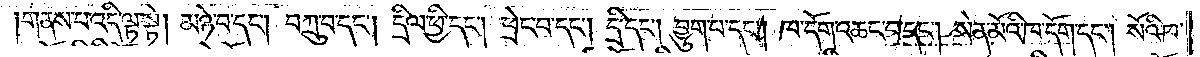གནས་པ་འདི་ལྟ་སྟེ། མཉེ་བ་དང༌། བཀྲུ་བ་དང༌། དྲིལ་ཕྱི་དང༌། ཕྲེང་བ་དང༌། དྲི་དང༌། བྱུག་པ་དང༌། ཁ་དོག་འཆང་བ་དང༌། སེན་མོའི་ཁ་དོག་དང༌། སོའི་ཁ་
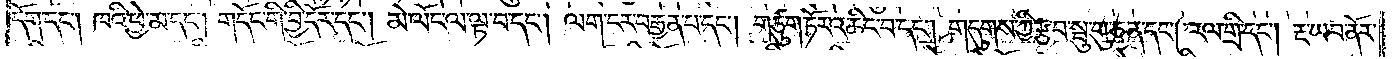དོག་དང༌། ཁའི་ཕྱེ་མ་དང༌། གདོང་གི་བྱི་དོར་དང༌། མེ་ལོང་ལ་ལྟ་བ་དང༌། ལག་ངར་བརྒྱན་པ་དང༌། གཙུག་ཏོར་འཆིང་བ་དང༌། གདུགས་ཀྱི་རྩ་བ་སྦུ་གུ་ཅན་དང༌། རལ་གྲི་དང༌། རྔ་ཡབ་ནོར་
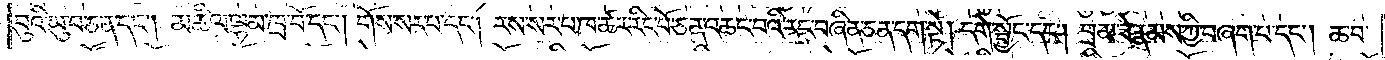བུའི་ཡུ་བ་ཅན་དང༌། མཆིལ་ལྷམ་ཁྲ་བོ་དང༌། གོས་སར་པ་དང༌། རས་སར་པ་ཁ་ཚར་རིང་པོ་ཅན་འཆང་བའི་རང་བཞིན་ཅན་དག་སྟེ། དགེ་སྦྱོང་དང༌། བྲམ་ཟེ་རྣམས་ཀྱི་བཞག་པ་དང༌། ཆ་བ་
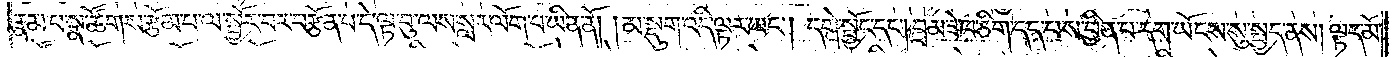རྣམ་པ་སྣ་ཚོགས་རྩོམ་པ་ལ་སྦྱོར་བར་བརྩོན་པ་དེ་ལྟ་བུ་ལས་སླར་ལོག་པ་ཡིན་ནོ། །མ་སྡུག་འདི་ལྟར་ཡང༌། དགེ་སྦྱོང་དང༌། བྲམ་ཟེ་ཁ་ཅིག་དད་པས་བྱིན་པ་དག་ཡོངས་སུ་སྤྱད་ནས། ལྟད་མོ་
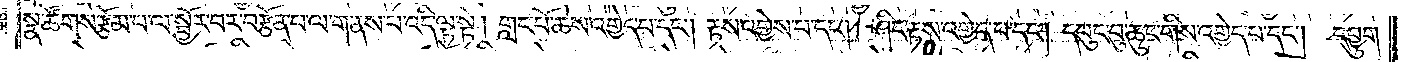སྣ་ཚོགས་རྩོམ་པ་ལ་སྦྱོར་བར་བརྩོན་པ་ལ་གནས་པ་འདི་ལྟ་སྟེ། གླང་པོ་ཆེས་འགྱེད་པ་དང༌། རྟས་འགྱེས་པ་དང༌། ཤིང་རྟས་འགྱེད་པ་དང༌། དཔུང་བུ་ཆུང་གིས་འགྱེད་པ་དང༌། དབྱུག་
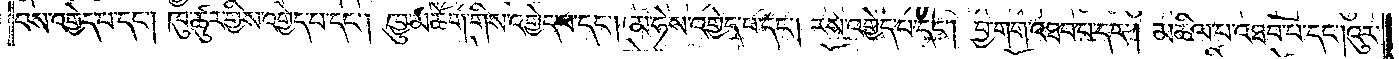བས་འགྱེད་པ་དང༌། ཁུ་ཚུར་གྱིས་འགྱེད་པ་དང༌། ཁྱུ་མཆོག་གིས་འགྱེད་པ་དང༌། མ་ཧེས་འགྱེད་པ་དང༌། རས་འགྱེད་པ་དང༌། བྱ་གག་འཐབ་པ་དང༌། མཆིལ་པ་འཐབ་པ་དང༌། འུར་
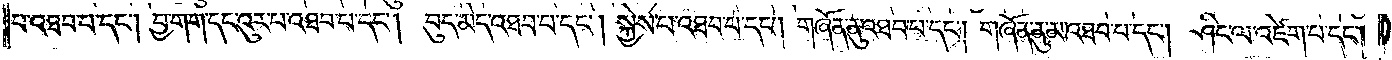པ་འཐབ་པ་དང༌། བྱ་གག་དང་འུར་པ་འཐབ་པ་དང༌། བུད་མེད་འཐབ་པ་དང༌། སྐྱེས་པ་འཐབ་པ་དང༌། གཞོན་ནུ་འཐབ་པ་དང༌། གཞོན་ནུ་མ་འཐབ་པ་དང༌། ཤིང་ལ་འཛེག་པ་དང༌།
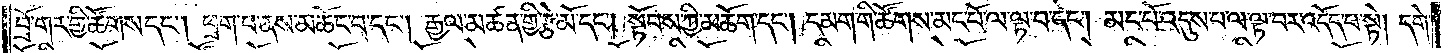བྲོ་གར་གྱི་ཚོགས་དང༌། ཕྲག་པ་ནས་མཆོང་བ་དང༌། རྒྱལ་མཚན་གྱི་རྩེ་མོ་དང༌། སྟོབས་ཀྱི་མཆོག་དང༌། དམག་གི་ཚོགས་མང་པོ་ལ་ལྟ་བ་དང༌། མང་པོ་འདུས་པ་ལ་ལྟ་བར་འདོད་པ་སྟེ། དགེ་
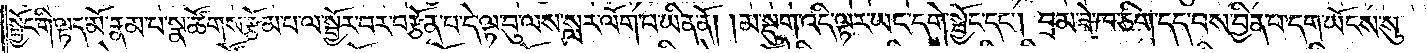སྦྱོང་གི་ལྟད་མོ་རྣམ་པ་སྣ་ཚོགས་རྩོམ་པ་ལ་སྦྱོར་བར་བརྩོན་པ་དེ་ལྟ་བུ་ལས་སླར་ལོག་པ་ཡིན་ནོ། །མ་སྡུག་འདི་ལྟར་ཡང་དགེ་སྦྱོང་དང༌། བྲམ་ཟེ་ཁ་ཅིག་དད་པས་བྱིན་པ་དག་ཡོངས་སུ་
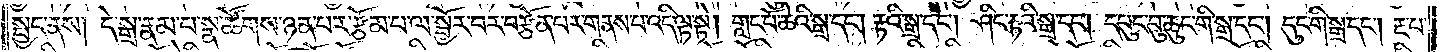སྤྱད་ནས། དེ་སྒྲ་རྣམ་པ་སྣ་ཚོགས་ཉན་པར་རྩོམ་པ་ལ་སྦྱོར་བར་བརྩོན་པར་གནས་པ་འདི་ལྟ་སྟེ། གླང་པོ་ཆེའི་སྒྲ་དང༌། རྟའི་སྒྲ་དང༌། ཤིང་རྟའི་སྒྲ་དང༌། དཔུང་བུ་ཆུང་གི་སྒྲ་དང༌། དུང་གི་སྒྲ་དང༌། རྔ་པ་
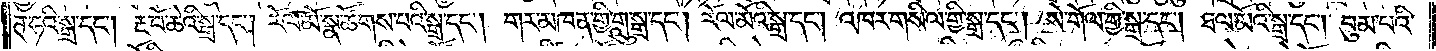ཊ་ཧའི་སྒྲ་དང༌། རྔ་བོ་ཆེའི་སྒྲ་དང༌། རོལ་མོ་སྣ་ཚོགས་པའི་སྒྲ་དང༌། གར་མཁན་གྱི་གླུ་སྒྲ་དང༌། རོལ་མོའི་སྒྲ་དང༌། འཁར་གསིལ་གྱི་སྒྲ་དང༌། སེ་གོལ་གྱི་སྒྲ་དང༌། ཐལ་མོའི་སྒྲ་དང༌། བུམ་པའི་
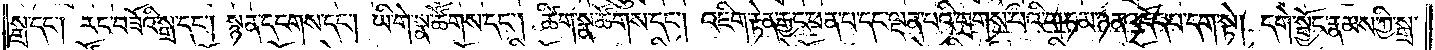སྒྲ་དང༌། རང་བཟོའི་སྒྲ་དང༌། སྙན་དངགས་དང༌། ཡི་གེ་སྣ་ཚོགས་དང༌། ཚིག་སྣ་ཚོགས་དང༌། འཇིག་རྟེན་རྒྱང་ཕན་པ་དང་ལྡན་པའི་གྲགས་པའི་གཏམ་ཉན་འདོད་པ་དག་སྟེ། དགེ་སྦྱོང་རྣམས་ཀྱི་སྒྲ་
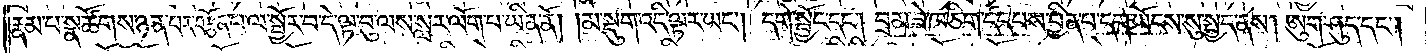རྣམ་པ་སྣ་ཚོགས་ཉན་པར་བརྩོན་པ་ལ་སྦྱོར་བ་དེ་ལྟ་བུ་ལས་སླར་ལོག་པ་ཡིན་ནོ། །མ་སྡུག་འདི་ལྟར་ཡང༌། དགེ་སྦྱོང་དང༌། བྲམ་ཟེ་ཁ་ཅིག་དད་པས་བྱིན་པ་དག་ཡོངས་སུ་སྤྱད་ནས། ཨུག་ཤུད་དང༌།
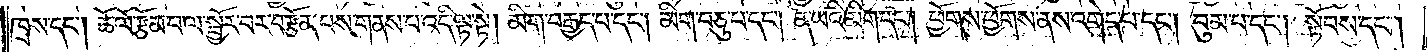ཁྲས་དང༌། ཆོ་ལོ་རྩོམ་པ་ལ་སྦྱོར་བར་བརྩོན་པས་གནས་པ་འདི་ལྟ་སྟེ། མིག་བརྒྱད་པ་དང༌། མིག་བཅུ་པ་དང༌། ན་ཡའི་མིག་དང༌། ཕྱོགས་ཕྱོགས་ནས་འགེད་པ་དང༌། བུམ་པ་དང༌། སྟོབས་དང༌།
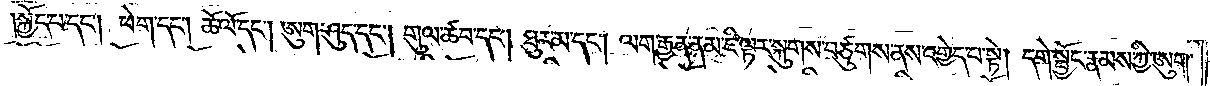སྐྱོད་པ་དང༌། ཕེག་དང༌། ཆོ་ལོ་དང༌། ཨུག་ཤུད་དང༌། གུལ་ཚབ་དང༌། ཐུར་མ་དང༌། ལག་རྒྱན་ནམ་ཇི་ལྟར་སྐུགས་བཙུགས་ནས་འགྱེད་པ་སྟེ། དགེ་སྦྱོང་རྣམས་ཀྱི་ཨུག་
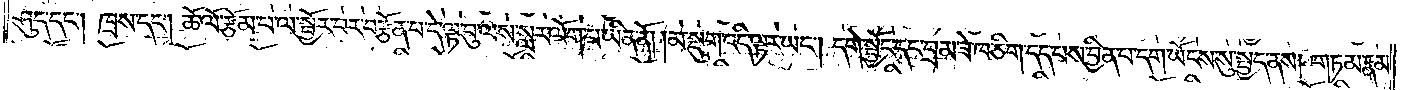ཤུད་དང༌། ཁྲས་དང༌། ཆོ་ལོ་རྩོམ་པ་ལ་སྦྱོར་བར་བརྩོན་པ་དེ་ལྟ་བུ་ལས་སླར་ལོག་པ་ཡིན་ནོ། །མ་སྡུག་འདི་ལྟར་ཡང༌། དགེ་སྦྱོང་དང་བྲམ་ཟེ་ཁ་ཅིག་དད་པས་བྱིན་པ་དག་ཡོངས་སུ་སྤྱད་ནས། གཏམ་རྣམ་
